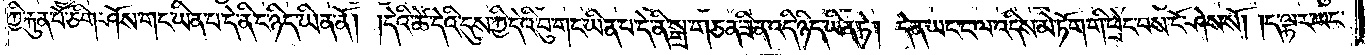ཀྱི་རྐུན་པོ་ཅིག་ཤོས་གང་ཡིན་པ་དེ་ནི་ང་ཉིད་ཡིན་ནོ། །དེའི་ཚེ་དེའི་དུས་ཀྱི་དེའི་བུ་གང་ཡིན་པ་དེ་ནི་སྒྲ་གཅན་ཟིན་འདི་ཉིད་ཡིན་ཏེ། དེ་ན་ཡང་ང་ལ་འདིས་མེ་ཏོག་གི་ཕྲེང་བས་ངོ་ཤེས་སོ། །ད་ལྟར་ཡང་
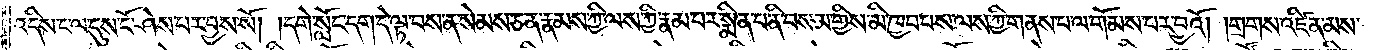འདིས་ང་ལ་དུས་ངོ་ཤེས་པར་བྱས་སོ། །དགེ་སློང་དག་དེ་ལྟ་བས་ན་སེམས་ཅན་རྣམས་ཀྱི་ལས་ཀྱི་རྣམ་པར་སྨིན་པ་ནི་བསམ་གྱིས་མི་ཁྱབ་པས་ལས་ཀྱི་གནས་པ་ལ་གོམས་པར་བྱའོ། །གྲགས་འཛིན་མས་
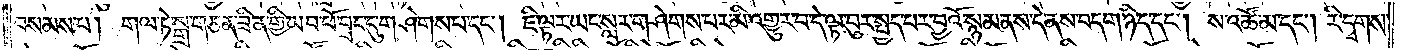བསམས་པ། གལ་ཏེ་སྒྲ་གཅན་ཟིན་གྱི་ཡབ་ཕོ་བྲང་དུ་གཤེགས་པ་དང༌། ཇི་ལྟར་ཡང་སླར་གཤེགས་པར་མི་འགྱུར་བ་དེ་ལྟ་བུར་སྤྱད་པར་བྱའོ་སྙམ་ནས་དེ་ནས་བདག་ཉིད་དང༌། ས་འཚོ་མ་དང༌། རི་དྭགས་
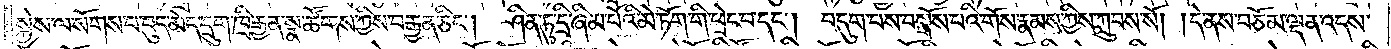སྐྱེས་ལ་སོགས་པ་བུད་མེད་དྲུག་ཁྲི་རྒྱན་སྣ་ཚོགས་ཀྱིས་བརྒྱན་ཅིང༌། ཤིན་ཏུ་དྲི་ཞིམ་པོའི་མེ་ཏོག་གི་ཕྲེང་བ་དང༌། བདུག་པས་བསྒོས་པའི་གོས་རྣམས་ཀྱིས་ཀླུབས་སོ། །དེ་ནས་བཅོམ་ལྡན་འདས་
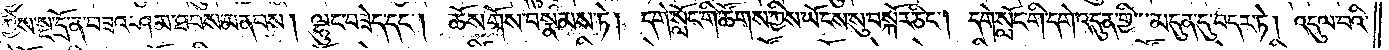ཀྱིས་སྔ་དྲོ་ན་བཟའ་ཤམ་ཐབས་མནབས། ལྷུང་བཟེད་དང༌། ཆོས་གོས་བསྣམས་ཏེ། དགེ་སློང་གི་ཚོགས་ཀྱིས་ཡོངས་སུ་བསྐོར་ཅིང༌། དགེ་སློང་གི་དགེ་འདུན་གྱི་མདུན་དུ་བདར་ཏེ། འདུལ་བའི་
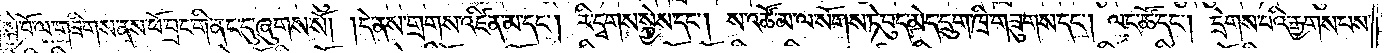སྐྱེ་བོ་ལ་གཟིགས་ནས་ཕོ་བྲང་གི་ནང་དུ་ཞུགས་སོ། །དེ་ནས་གྲགས་འཛིན་མ་དང༌། རི་དྭགས་སྐྱེས་དང༌། ས་འཚོ་མ་ལ་སོགས་ཏེ་བུད་མེད་དྲུག་ཁྲི་གཟུགས་དང༌། ལང་ཚོ་དང༌། དྲེགས་པའི་རྒྱགས་པས་
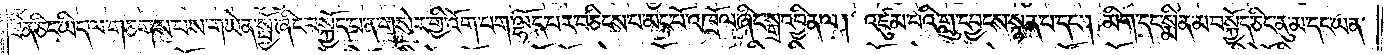ཟིན་ཅིང་ཡིད་ལ་གཅགས་པས་གཡེན་སྤྱོ་ཞིང་བསྐྱོད་པན་གསེར་གྱི་འོག་པག་ལྷོད་པར་བཅིངས་པ་མང་པོ་འཁྲོལ་ཞིང་སྒྲ་འབྱིན་ལ། འཛུམ་པའི་གླུ་དབྱངས་སྙན་པ་དང༌། མིག་དང་སྨིན་མ་བསྐྱོད་ཅིང་ནུ་མ་དང་ཡན་
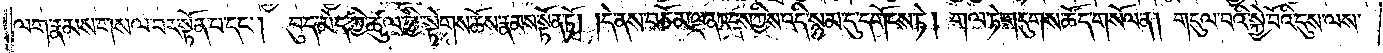ལག་རྣམས་གསལ་བར་སྟོན་པ་དང༌། བུད་མེད་ཀྱི་ཚུལ་གྱི་སྟེགས་ཆོས་རྣམས་སྟོན་ཏོ། །དེ་ནས་བཅོམ་ལྡན་འདས་ཀྱིས་འདི་སྙམ་དུ་དགོངས་ཏེ། གལ་ཏེ་གདུགས་ཚོད་གསོལ་ན། གདུལ་བའི་སྐྱེ་བོའི་དུས་ལས་
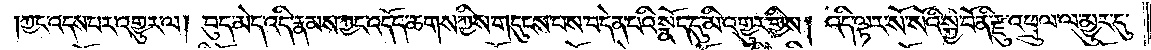།ཀྱང་འདས་པར་འགྱུར་ལ། བུད་མེད་འདི་རྣམས་ཀྱང་འདོད་ཆགས་ཀྱིས་གདུངས་པས་བདེན་པའི་སྣོད་དུ་མི་འགྱུར་གྱིས། འདི་ལྟར་སོ་སོའི་སྐྱེ་བོ་ནི་རྫུ་འཕྲུལ་ལ་མྱུར་དུ་
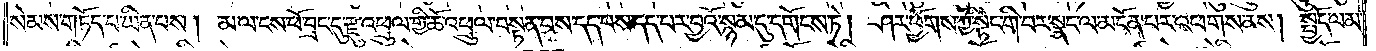སེམས་གཏོད་པ་ཡིན་པས། མ་ལ་ངས་ཕོ་བྲང་དུ་རྫུ་འཕྲུལ་གྱི་ཆོ་འཕྲུལ་བསྟན་པས་དད་པར་དད་པར་བྱའོ་སྙམ་དུ་དགོངས་ཏེ། ཤར་ཕྱོགས་ཀྱི་སྟེང་གི་བར་སྣང་ལ་མངོན་པར་འཕགས་ནས། སྤྱོད་ལམ་
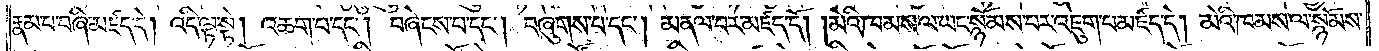རྣམ་པ་བཞི་མཛད་དེ། འདི་ལྟ་སྟེ། འཆག་པ་དང༌། བཞེངས་པ་དང༌། བཞུགས་པ་དང༌། མནལ་བར་མཛད་དོ། །མེའི་ཁམས་ལ་ཡང་སྙོམས་པར་འཇུག་པ་མཛད་དེ། མེའི་ཁམས་ལ་སྙོམས་
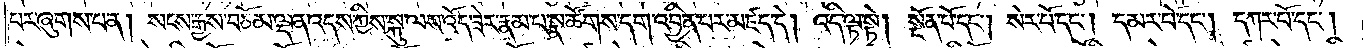པར་ཞུགས་པ་ན། སངས་རྒྱས་བཅོམ་ལྡན་འདས་ཀྱིས་སྐུ་ལས་འོད་ཟེར་རྣམ་པ་སྣ་ཚོགས་དག་འབྱིན་པར་མཛད་དེ། འདི་ལྟ་སྟེ། སྔོན་པོ་དང༌། སེར་པོ་དང༌། དམར་པོ་དང༌། དཀར་པོ་དང༌།
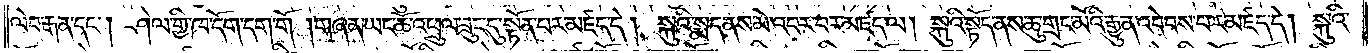ལེབ་རྒན་དང༌། ཤེལ་གྱི་ཁ་དོག་དག་གོ །གཞན་ཡང་ཆོ་འཕྲུལ་ཟུང་དུ་སྟོན་པར་མཛད་དེ། སྐུའི་སྨད་ནས་མེ་འབར་བར་མཛད་ལ། སྐུའི་སྟོད་ནས་ཆུ་གྲང་མོའི་རྒྱུན་འབེབས་པར་མཛད་དེ། སྐུའི་
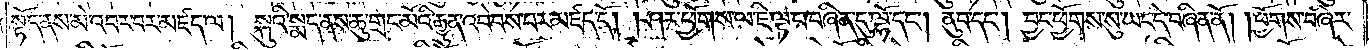སྟོད་ནས་མེ་འབར་བར་མཛད་ལ། སྐུའི་སྨད་ནས་ཆུ་གྲང་མོའི་རྒྱུན་འབེབས་པར་མཛད་དོ། །ཤར་ཕྱོགས་ལ་ཇི་ལྟ་བ་བཞིན་དུ་ལྷོ་དང༌། ནུབ་དང༌། བྱང་ཕྱོགས་སུ་ཡང་དེ་བཞིན་ནོ། །ཕྱོགས་བཞིར་
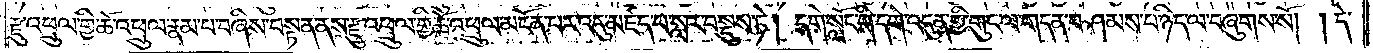རྫུ་འཕྲུལ་གྱི་ཆོ་འཕྲུལ་རྣམ་པ་བཞིས་བསྟན་ནས་རྫུ་འཕྲུལ་གྱི་ཆོ་འཕྲུལ་མངོན་པར་འདུ་མཛད་པ་སླར་བསྡུས་ཏེ། དགེ་སློང་གི་དགེ་འདུན་གྱི་གུང་ལ་གདན་བཤམས་པ་ཉིད་ལ་བཞུགས་སོ། །དེ་
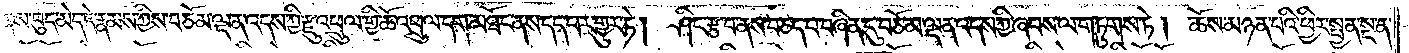ནས་བུད་མེད་དེ་རྣམས་ཀྱིས་བཅོམ་ལྡན་འདས་ཀྱི་རྫུ་འཕྲུལ་གྱི་ཆོ་འཕྲུལ་དག་མཐོང་ནས་དད་པར་གྱུར་ཏེ། ཤིང་རྩ་བ་ནས་བཅད་པ་བཞིན་དུ་བཅོམ་ལྡན་འདས་ཀྱི་ཞབས་ལ་གཏུགས་ཏེ། ཆོས་མཉན་པའི་ཕྱིར་སྤྱན་སྔ་ན་
